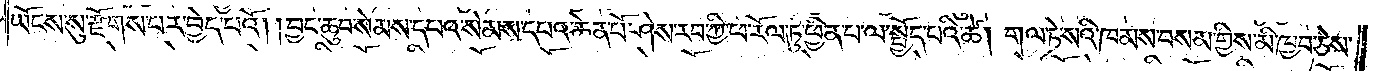ཡོངས་སུ་རྫོགས་པར་བྱེད་པའོ། །བྱང་ཆུབ་སེམས་དཔའ་སེམས་དཔའ་ཆེན་པོ་ཤེས་རབ་ཀྱི་ཕ་རོལ་ཏུ་ཕྱིན་པ་ལ་སྤྱོད་པའི་ཚེ། གལ་ཏེ་སའི་ཁམས་བསམ་གྱིས་མི་ཁྱབ་ཅེས་
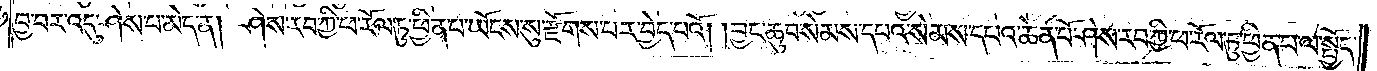བྱ་བར་འདུ་ཤེས་པ་མེད་ན། ཤེས་རབ་ཀྱི་ཕ་རོལ་ཏུ་ཕྱིན་པ་ཡོངས་སུ་རྫོགས་པར་བྱེད་པའོ། །བྱང་ཆུབ་སེམས་དཔའ་སེམས་དཔའ་ཆེན་པོ་ཤེས་རབ་ཀྱི་ཕ་རོལ་ཏུ་ཕྱིན་པ་ལ་སྤྱོད་
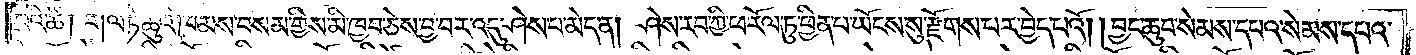པའི་ཚེ། གལ་ཏེ་ཆུའི་ཁམས་བསམ་གྱིས་མི་ཁྱབ་ཅེས་བྱ་བར་འདུ་ཤེས་པ་མེད་ན། ཤེས་རབ་ཀྱི་ཕ་རོལ་ཏུ་ཕྱིན་པ་ཡོངས་སུ་རྫོགས་པར་བྱེད་པའོ། །བྱང་ཆུབ་སེམས་དཔའ་སེམས་དཔའ་
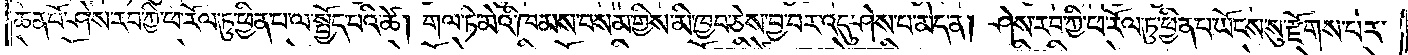ཆེན་པོ་ཤེས་རབ་ཀྱི་ཕ་རོལ་ཏུ་ཕྱིན་པ་ལ་སྤྱོད་པའི་ཚེ། གལ་ཏེ་མེའི་ཁམས་བསམ་གྱིས་མི་ཁྱབ་ཅེས་བྱ་བར་འདུ་ཤེས་པ་མེད་ན། ཤེས་རབ་ཀྱི་ཕ་རོལ་ཏུ་ཕྱིན་པ་ཡོངས་སུ་རྫོགས་པར་
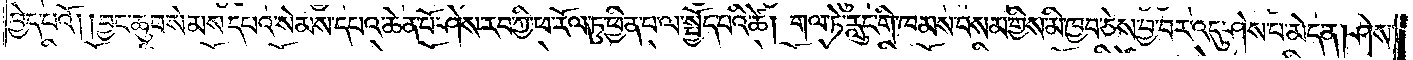བྱེད་པའོ། །བྱང་ཆུབ་སེམས་དཔའ་སེམས་དཔའ་ཆེན་པོ་ཤེས་རབ་ཀྱི་ཕ་རོལ་ཏུ་ཕྱིན་པ་ལ་སྤྱོད་པའི་ཚེ། གལ་ཏེ་རླུང་གི་ཁམས་བསམ་གྱིས་མི་ཁྱབ་ཅེས་བྱ་བར་འདུ་ཤེས་པ་མེད་ན། ཤེས་
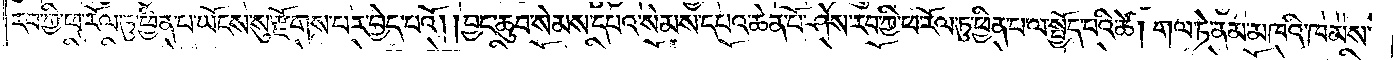རབ་ཀྱི་ཕ་རོལ་ཏུ་ཕྱིན་པ་ཡོངས་སུ་རྫོགས་པར་བྱེད་པའོ། །བྱང་ཆུབ་སེམས་དཔའ་སེམས་དཔའ་ཆེན་པོ་ཤེས་རབ་ཀྱི་ཕ་རོལ་ཏུ་ཕྱིན་པ་ལ་སྤྱོད་པའི་ཚེ། གལ་ཏེ་ནམ་མཁའི་ཁམས་
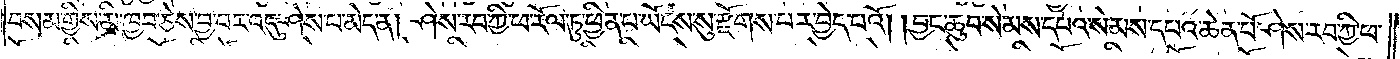བསམ་གྱིས་མི་ཁྱབ་ཅེས་བྱ་བར་འདུ་ཤེས་པ་མེད་ན། ཤེས་རབ་ཀྱི་ཕ་རོལ་ཏུ་ཕྱིན་པ་ཡོངས་སུ་རྫོགས་པར་བྱེད་པའོ། །བྱང་ཆུབ་སེམས་དཔའ་སེམས་དཔའ་ཆེན་པོ་ཤེས་རབ་ཀྱི་ཕ་
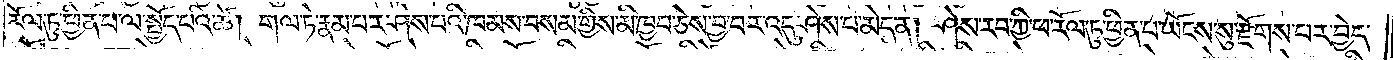རོལ་ཏུ་ཕྱིན་པ་ལ་སྤྱོད་པའི་ཚེ། གལ་ཏེ་རྣམ་པར་ཤེས་པའི་ཁམས་བསམ་གྱིས་མི་ཁྱབ་ཅེས་བྱ་བར་འདུ་ཤེས་པ་མེད་ན། ཤེས་རབ་ཀྱི་ཕ་རོལ་ཏུ་ཕྱིན་པ་ཡོངས་སུ་རྫོགས་པར་བྱེད་
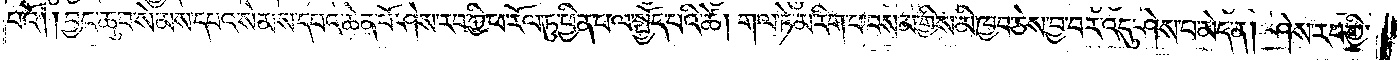པའོ། །བྱང་ཆུབ་སེམས་དཔའ་སེམས་དཔའ་ཆེན་པོ་ཤེས་རབ་ཀྱི་ཕ་རོལ་ཏུ་ཕྱིན་པ་ལ་སྤྱོད་པའི་ཚེ། གལ་ཏེ་མ་རིག་པ་བསམ་གྱིས་མི་ཁྱབ་ཅེས་བྱ་བར་འདུ་ཤེས་པ་མེད་ན། ཤེས་རབ་ཀྱི་
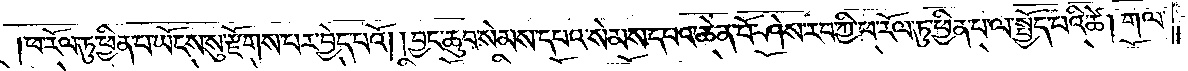ཕ་རོལ་ཏུ་ཕྱིན་པ་ཡོངས་སུ་རྫོགས་པར་བྱེད་པའོ། །བྱང་ཆུབ་སེམས་དཔའ་སེམས་དཔའ་ཆེན་པོ་ཤེས་རབ་ཀྱི་ཕ་རོལ་ཏུ་ཕྱིན་པ་ལ་སྤྱོད་པའི་ཚེ། གལ་
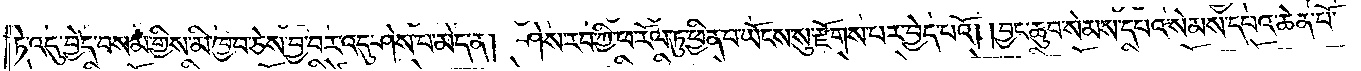ཏེ་འདུ་བྱེད་བསམ་གྱིས་མི་ཁྱབ་ཅེས་བྱ་བར་འདུ་ཤེས་པ་མེད་ན། ཤེས་རབ་ཀྱི་ཕ་རོལ་ཏུ་ཕྱིན་པ་ཡོངས་སུ་རྫོགས་པར་བྱེད་པའོ། །བྱང་ཆུབ་སེམས་དཔའ་སེམས་དཔའ་ཆེན་པོ་
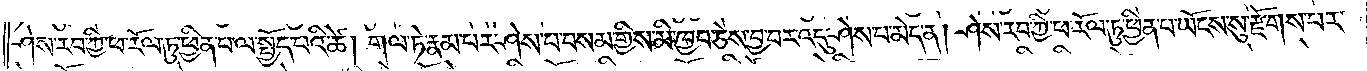ཤེས་རབ་ཀྱི་ཕ་རོལ་ཏུ་ཕྱིན་པ་ལ་སྤྱོད་པའི་ཚེ། གལ་ཏེ་རྣམ་པར་ཤེས་པ་བསམ་གྱིས་མི་ཁྱབ་ཅེས་བྱ་བར་འདུ་ཤེས་པ་མེད་ན། ཤེས་རབ་ཀྱི་ཕ་རོལ་ཏུ་ཕྱིན་པ་ཡོངས་སུ་རྫོགས་པར་
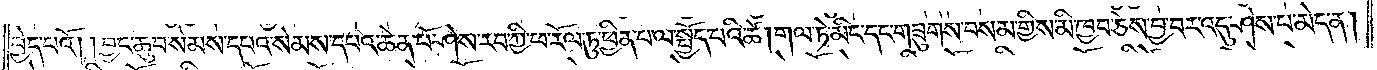བྱེད་པའོ། །བྱང་ཆུབ་སེམས་དཔའ་སེམས་དཔའ་ཆེན་པོ་ཤེས་རབ་ཀྱི་ཕ་རོལ་ཏུ་ཕྱིན་པ་ལ་སྤྱོད་པའི་ཚེ། གལ་ཏེ་མིང་དང་གཟུགས་བསམ་གྱིས་མི་ཁྱབ་ཅེས་བྱ་བར་འདུ་ཤེས་པ་མེད་ན།
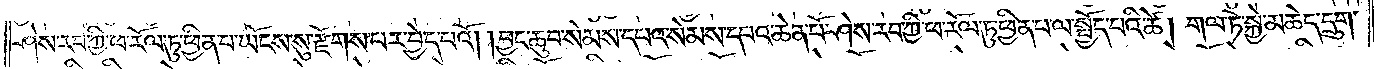ཤེས་རབ་ཀྱི་ཕ་རོལ་ཏུ་ཕྱིན་པ་ཡོངས་སུ་རྫོགས་པར་བྱེད་པའོ། །བྱང་ཆུབ་སེམས་དཔའ་སེམས་དཔའ་ཆེན་པོ་ཤེས་རབ་ཀྱི་ཕ་རོལ་ཏུ་ཕྱིན་པ་ལ་སྤྱོད་པའི་ཚེ། གལ་ཏེ་སྐྱེ་མཆེད་དྲུག་
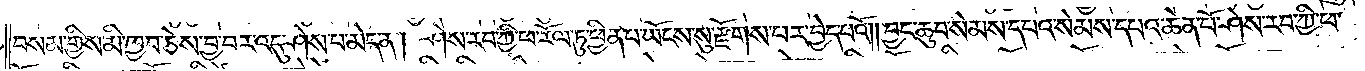བསམ་གྱིས་མི་ཁྱབ་ཅེས་བྱ་བར་འདུ་ཤེས་པ་མེད་ན། ཤེས་རབ་ཀྱི་ཕ་རོལ་ཏུ་ཕྱིན་པ་ཡོངས་སུ་རྫོགས་པར་བྱེད་པའོ། །བྱང་ཆུབ་སེམས་དཔའ་སེམས་དཔའ་ཆེན་པོ་ཤེས་རབ་ཀྱི་ཕ་
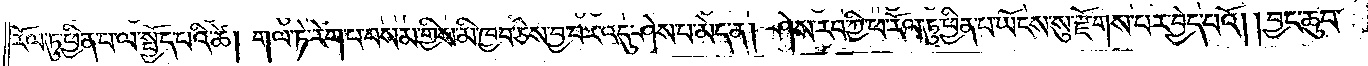རོལ་ཏུ་ཕྱིན་པ་ལ་སྤྱོད་པའི་ཚེ། གལ་ཏེ་རེག་པ་བསམ་གྱིས་མི་ཁྱབ་ཅེས་བྱ་བར་འདུ་ཤེས་པ་མེད་ན། ཤེས་རབ་ཀྱི་ཕ་རོལ་ཏུ་ཕྱིན་པ་ཡོངས་སུ་རྫོགས་པར་བྱེད་པའོ། །བྱང་ཆུབ་
